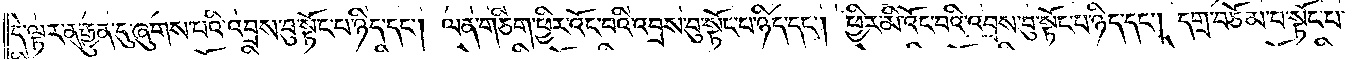དེ་ལྟར་ན་རྒྱུན་དུ་ཞུགས་པའི་འབྲས་བུ་སྟོང་པ་ཉིད་དང༌། ལན་ཅིག་ཕྱིར་འོང་བའི་འབྲས་བུ་སྟོང་པ་ཉིད་དང༌། ཕྱིར་མི་འོང་བའི་འབྲས་བུ་སྟོང་པ་ཉིད་དང༌། དགྲ་བཅོམ་པ་སྟོང་པ་
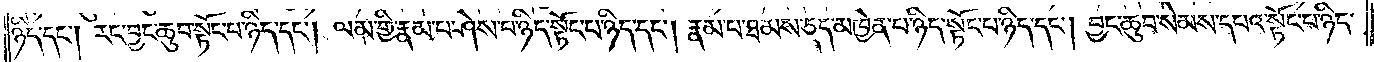ཉིད་དང༌། རང་བྱང་ཆུབ་སྟོང་པ་ཉིད་དང༌། ལམ་གྱི་རྣམ་པ་ཤེས་པ་ཉིད་སྟོང་པ་ཉིད་དང༌། རྣམ་པ་ཐམས་ཅད་མཁྱེན་པ་ཉིད་སྟོང་པ་ཉིད་དང༌། བྱང་ཆུབ་སེམས་དཔའ་སྟོང་པ་ཉིད་
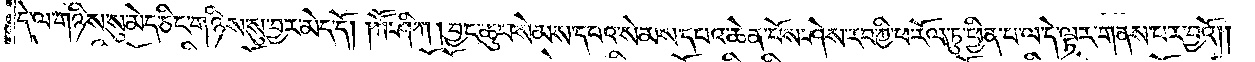དེ་ལ་གཉིས་སུ་མེད་ཅིང་གཉིས་སུ་བྱར་མེད་དོ། །ཀཽ་ཤི་ཀ །བྱང་ཆུབ་སེམས་དཔའ་སེམས་དཔའ་ཆེན་པོས་ཤེས་རབ་ཀྱི་ཕ་རོལ་ཏུ་ཕྱིན་པ་ལ་དེ་ལྟར་གནས་པར་བྱའོ༎
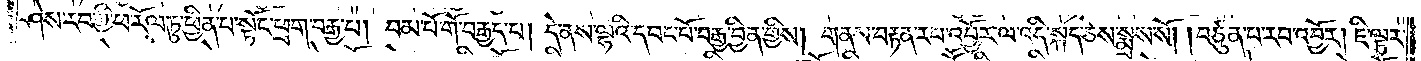ཤེས་རབ་ཀྱི་ཕ་རོལ་ཏུ་ཕྱིན་པ་སྟོང་ཕྲག་བརྒྱ་པ། །བམ་པོ་གོ་བརྒྱད་པ། །དེ་ནས་ལྷའི་དབང་པོ་བརྒྱ་བྱིན་གྱིས། གནས་བརྟན་རབ་འབྱོར་ལ་འདི་སྐད་ཅེས་སྨྲས་སོ། །བཙུན་པ་རབ་འབྱོར། ཇི་ལྟར་
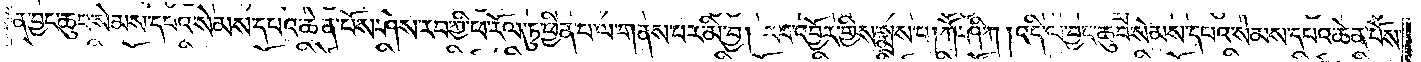ན་བྱང་ཆུབ་སེམས་དཔའ་སེམས་དཔའ་ཆེན་པོས་ཤེས་རབ་ཀྱི་ཕ་རོལ་ཏུ་ཕྱིན་པ་ལ་གནས་པར་མི་བྱ། རབ་འབྱོར་གྱིས་སྨྲས་པ། ཀཽ་ཤི་ཀ །འདི་ལ་བྱང་ཆུབ་སེམས་དཔའ་སེམས་དཔའ་ཆེན་པོས་
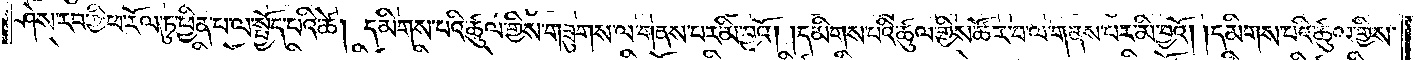ཤེས་རབ་ཀྱི་ཕ་རོལ་ཏུ་ཕྱིན་པ་ལ་སྤྱོད་པའི་ཚེ། དམིགས་པའི་ཚུལ་གྱིས་གཟུགས་ལ་གནས་པར་མི་བྱའོ། །དམིགས་པའི་ཚུལ་གྱིས་ཚོར་བ་ལ་གནས་པར་མི་བྱའོ། །དམིགས་པའི་ཚུལ་གྱིས་
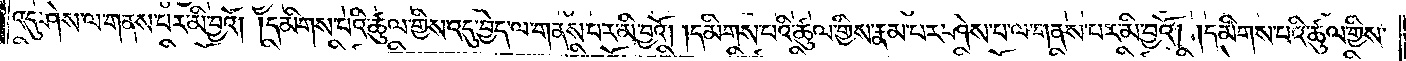འདུ་ཤེས་ལ་གནས་པར་མི་བྱའོ། །དམིགས་པའི་ཚུལ་གྱིས་འདུ་བྱེད་ལ་གནས་པར་མི་བྱའོ། །དམིགས་པའི་ཚུལ་གྱིས་རྣམ་པར་ཤེས་པ་ལ་གནས་པར་མི་བྱའོ། །དམིགས་པའི་ཚུལ་གྱིས་
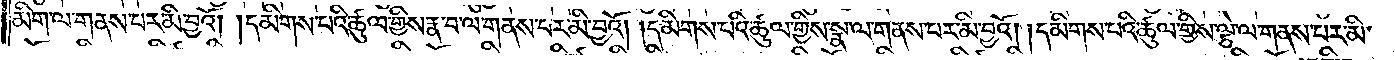མིག་ལ་གནས་པར་མི་བྱའོ། །དམིགས་པའི་ཚུལ་གྱིས་རྣ་བ་ལ་གནས་པར་མི་བྱའོ། །དམིགས་པའི་ཚུལ་གྱིས་སྣ་ལ་གནས་པར་མི་བྱའོ། །དམིགས་པའི་ཚུལ་གྱིས་ལྕེ་ལ་གནས་པར་མི་
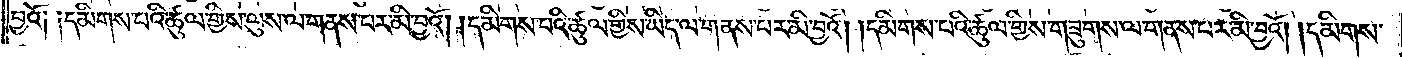བྱའོ༏ ༏དམིགས་པའི་ཚུལ་གྱིས་ལུས་ལ་གནས་པར་མི་བྱའོ། །དམིགས་པའི་ཚུལ་གྱིས་ཡིད་ལ་གནས་པར་མི་བྱའོ། །དམིགས་པའི་ཚུལ་གྱིས་གཟུགས་ལ་གནས་པར་མི་བྱའོ། །དམིགས་
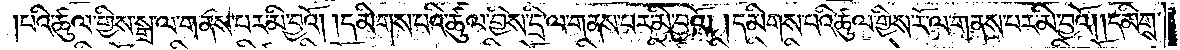པའི་ཚུལ་གྱིས་སྒྲ་ལ་གནས་པར་མི་བྱའོ། །དམིགས་པའི་ཚུལ་གྱིས་དྲི་ལ་གནས་པར་མི་བྱའོ། །དམིགས་པའི་ཚུལ་གྱིས་རོ་ལ་གནས་པར་མི་བྱའོ། །དམིགས་
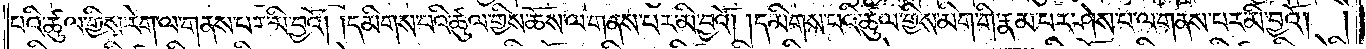པའི་ཚུལ་གྱིས་རེག་ལ་གནས་པར་མི་བྱའོ། །དམིགས་པའི་ཚུལ་གྱིས་ཆོས་ལ་གནས་པར་མི་བྱའོ། །དམིགས་པའི་ཚུལ་གྱིས་མིག་གི་རྣམ་པར་ཤེས་པ་ལ་གནས་པར་མི་བྱའོ། །
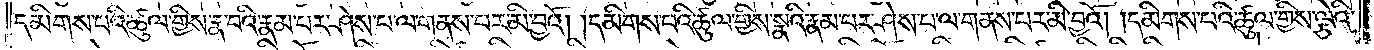དམིགས་པའི་ཚུལ་གྱིས་རྣ་བའི་རྣམ་པར་ཤེས་པ་ལ་གནས་པར་མི་བྱའོ། །དམིགས་པའི་ཚུལ་གྱིས་སྣའི་རྣམ་པར་ཤེས་པ་ལ་གནས་པར་མི་བྱའོ། །དམིགས་པའི་ཚུལ་གྱིས་ལྕེའི་
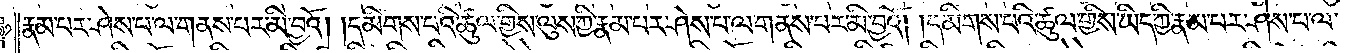རྣམ་པར་ཤེས་པ་ལ་གནས་པར་མི་བྱའོ། །དམིགས་པའི་ཚུལ་གྱིས་ལུས་ཀྱི་རྣམ་པར་ཤེས་པ་ལ་གནས་པར་མི་བྱའོ། །དམིགས་པའི་ཚུལ་གྱིས་ཡིད་ཀྱི་རྣམ་པར་ཤེས་པ་ལ་
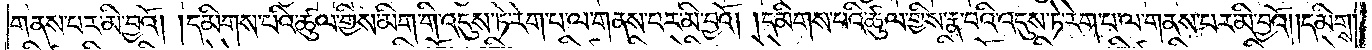གནས་པར་མི་བྱའོ། །དམིགས་པའི་ཚུལ་གྱིས་མིག་གི་འདུས་ཏེ་རེག་པ་ལ་གནས་པར་མི་བྱའོ། །དམིགས་པའི་ཚུལ་གྱིས་རྣ་བའི་འདུས་ཏེ་རེག་པ་ལ་གནས་པར་མི་བྱའོ། །དམིགས་
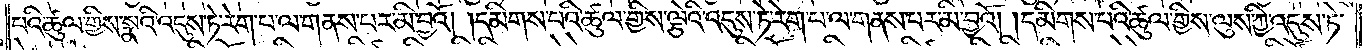པའི་ཚུལ་གྱིས་སྣའི་འདུས་ཏེ་རེག་པ་ལ་གནས་པར་མི་བྱའོ། །དམིགས་པའི་ཚུལ་གྱིས་ལྕེའི་འདུས་ཏེ་རེག་པ་ལ་གནས་པར་མི་བྱའོ། །དམིགས་པའི་ཚུལ་གྱིས་ལུས་ཀྱི་འདུས་ཏེ་
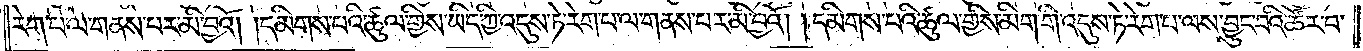རེག་པ་ལ་གནས་པར་མི་བྱའོ། །དམིགས་པའི་ཚུལ་གྱིས་ཡིད་ཀྱི་འདུས་ཏེ་རེག་པ་ལ་གནས་པར་མི་བྱའོ། །དམིགས་པའི་ཚུལ་གྱིས་མིག་གི་འདུས་ཏེ་རེག་པ་ལས་བྱུང་བའི་ཚོར་བ་
